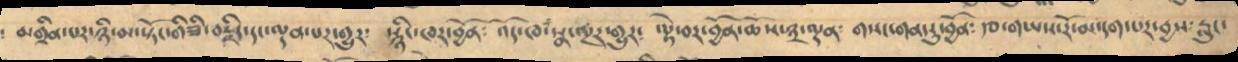མགྲིན་པར་ཉི་མ་སྟོང་གིཟི་བརྗིད་དང་ལྡན་པར་གྱུར༴ སྙིང་ཁར་བྱོན༴ འོད་ཁ་སྣ་ལྔར་གྱུར༴ ལྟེ་བར་བྱོན་ཆོས་༣་ལྡན༴ གསང་གན་རུ་བྱོན༴ རྩ་གཡས་རོ་མ་དག་པར་བྱས་རླུང་
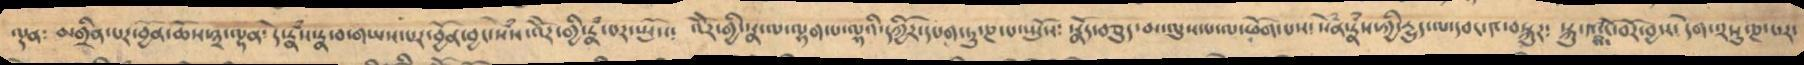ལྡན༴ མགྲིན་པར་བྱོན་ཆོས་༣་ལྡན༴ དེ་རྣཾས་རྣ་བར་གཡས་པར་བྱོན་བྱང་སེཾས་འོེར་གྱི་རྣཾ་པར་སྤོས༴ འོེར་གྱི་སྣ་ལ་ལྷག་པ་ལྷའི་དཀྱིོར་དེཔག་ཏུ་ཎ་པ་སྤོས༴ སྣོད་བཅུད་མ་ལུས་པ་ལ་ཕོག་པས་སེཾན་རྣཾས་ཀྱི་རྱུད་ལ་དབང་༤་བསྐུར༴ སྐུ་༤་ངོ་བོར་བྱས་དགེ་༢སུ་ཎ་པར་
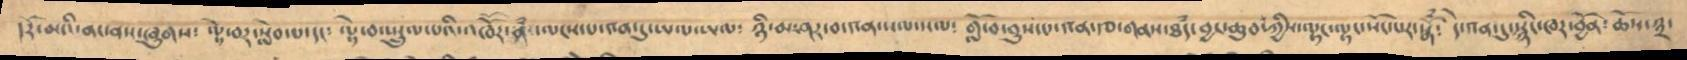།རོ་མའི་ནང་ནས་ཞུགས༴ ལྟེ་བར་སླེབ་པ་དང༴ ལྟེ་བ་སྲུལ་པའི་འཁོོར་ནཾ་ལངས་པ་༤ན་དུ་ཡར་ཡར༴ ཉི་མ་ཤར་བ་༤ན་པལ་པལ༴ གློ་བ་བུས་པ་༤ན་རྩ་གནས་ཐཾད་བྱང་ཆུབ་ཀྱིས་ལྟང་ལྟང་སོང་པར་སྒོཾ༴ དེ་༤ན་དུ་སྙིང་ཁར་བྱོན་ཆོས་༣་
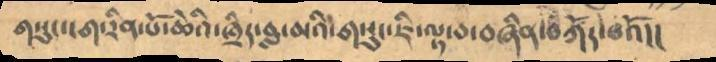གསུང་ངག་རིན་པོ་ཆེའི་ཁྲིད་བླ་མའི་གསུང་ཇི་ལྟ་བ་བཞིན་བཀོད་པའོ།།
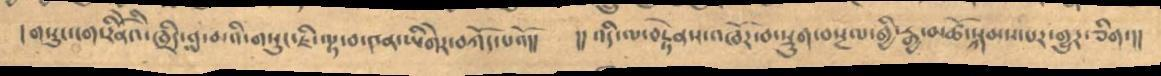གསུང་ངག་རིོནའི་ཁྲིད་བླ་མའི་གསུང་ཇི་ལྟ་བ་༤ན་ཡིགེར་བཀོད་པའོ།། །།འདི་ལ་བརྟེནས་འཁོར་བ་སྡུག་བསྔལ་གྱི་རྒྱ་མཚོ་སྐམས་པར་གྱུར་ཅིག་།།
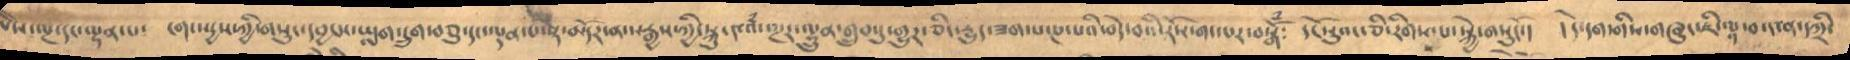ཡེེས་ལྔ་དང་ལྡན་པ༴ ངག་སདྱས་ཀྱི་གསུང་དབྱངས་ཡླག་དྲུག་བཅུ་དང་ལྡན་པ་སྟེ་མདོར་ན་སརྒྱས་ཀྱི་སྐུ་༤འཾ་ལྔར་ལྷུན་གྲུབ་དུ་གྱུར་ཅིང་རྱུད་ཟག་པ་ཎ་པའི་བདེ་བའི་རོས་གང་པར་བསྒོཾ༴ དངོསུའང་ཅི་རིགས་པ་སྐྱེ་གསུངོ་། །དེ་དག་གིས་གཞུང་ཇི་ལྟ་བ་༤ན་དཀྲི་
